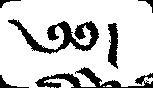༄༅།
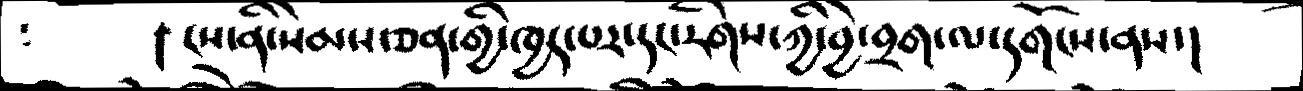།   ངས་ནི་སེམ་ཅན་གྱི་ཁྱད་པར་དང་རིགས་ཀྱི་བྱེ་བྲག་ལ་དགོངས་ནས་།
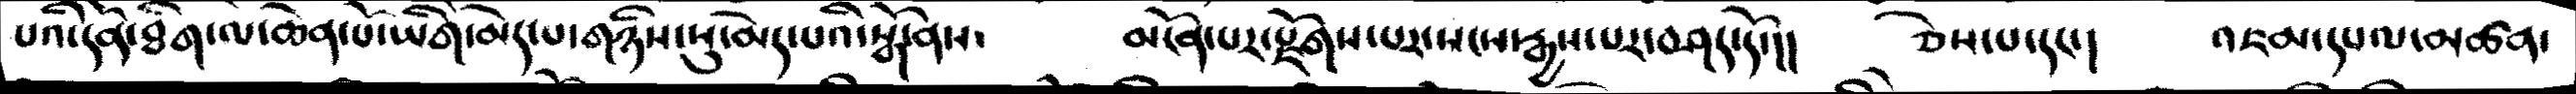པའི་དོན་ཐིག་ལ་ཆེན་པོ་ཡིག་མེད་པ་གཉིས་སུ་མེད་པའི་སྒོ་ནས་         མངོན་པར་སྫོགས་པར་སངས་རྒྱས་པར་བཤད་དོ་།།    ཅེས་པ་དང་།    འཇམ་དཔལ་མཚན་
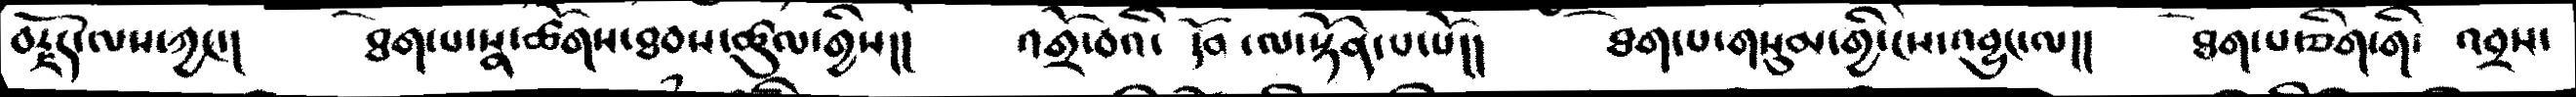བརྗོད་ལས་ཀྱང་།    ཐེག་པ་སྣ་ཚོགས་ཐབས་ཚུལ་གྱིས།།    འགྲོ་བའི་དོན་ལ་སྟོན་པ་པོ།།   ཐེག་པ་གསུམ་གྱི་ངེས་འབྱུང་ལ།།    ཐེག་པ་ཅིག་གི་  འབྲས་
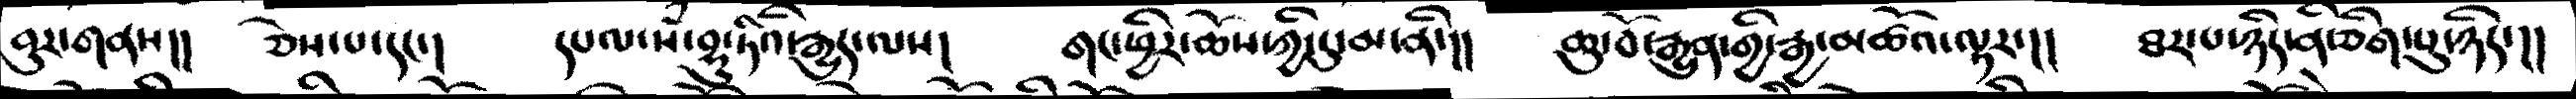བུར་གནས།།    ཅེས་པ་དང་།    དཔལ་སཾ་བྷུ་ཏིའི་རྒྱུར་ལས།    གང་ཕྱིར་ཆོས་ཀྱི་དུ་མ་ནི་།།   ཆུ་བོ་རྒྱུན་གྱི་རྒྱ་མཚོའ་ལྟར་།།     ཐར་པ་ཉིད་ནི་ཅིག་པུ་ཉིད་།།
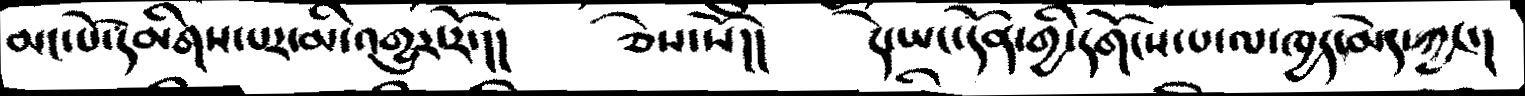མང་པོ་དམིགས་པར་མི་འགྱུར་རོ་།།   ཅེས་སོ།།   དེ་ཡང་དོན་གྱི་དགོངས་པ་ལ་ཁྱད་མེད་ཀྱང་།
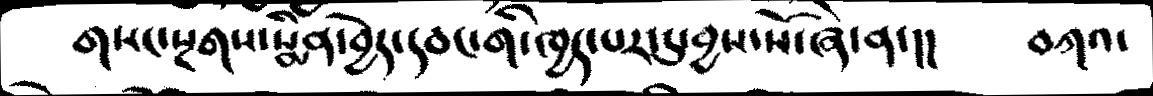གསང་སྔགས་སྨིན་བྱེད་དབང་གི་ཁྱད་པར་དུ་བྱས་སོ་ཞེ་ན་།།      བཀའ་
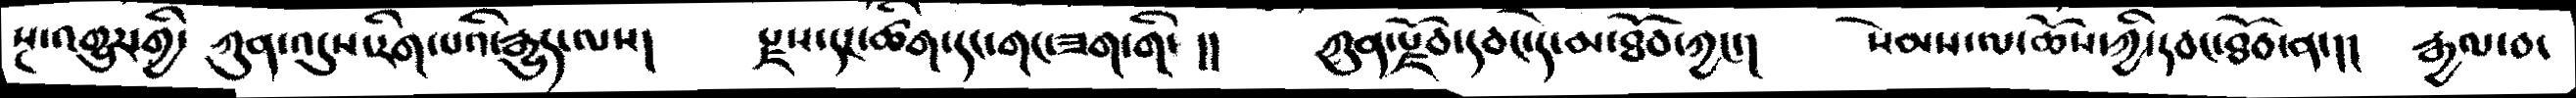སྔ་འགྱུར་གྱི་ ཀུན་འདུས་རིག་པའི་རྒྱུད་ལས།  རྫས་དང་ཚིག་དང་གང་ཟག་གི་།།  ཀུན་རྫོབ་དབང་དེ་མཐོང་ཀྱང་།  སེམས་ལ་ཆོས་ཀྱི་དབང་ཐོབ་ན་།།  རྒྱལ་བར་
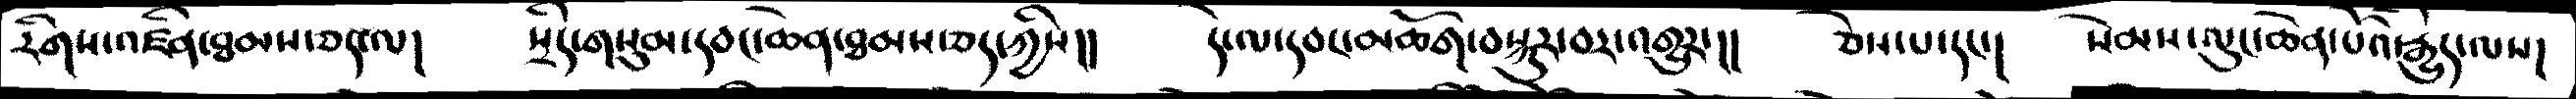རིགས་འཛིན་ཐམས་ཅད་ལ།  སྲིད་གསུམ་དབང་ཆེན་ཐམས་ཅད་ཀྱིས།།   དེ་ལ་དབང་མཆོག་བསྐུར་བར་འགྱུར་།།  ཅེས་པ་དང་།  སེམས་ལུང་ཆེན་པོའི་རྒྱུད་ལས།
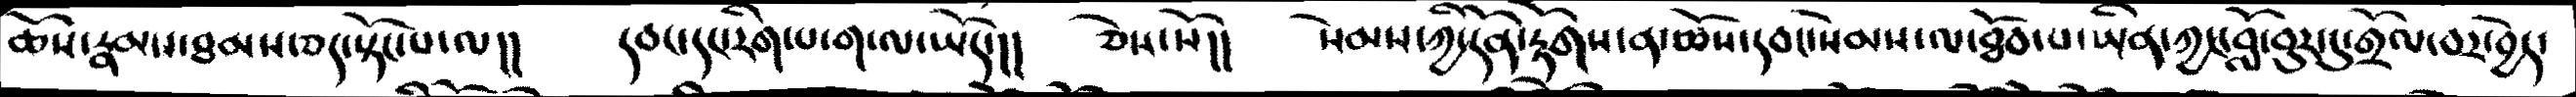ཆོས་རྣམས་ཐམས་ཅད་སྟོང་པ་ལ།།  དབང་དང་རིག་པ་ག་ལ་ཡིད་།  ཅེས་སོ།།   སེམས་ཀྱི་དོན་རྟོགས་ན་ཆོས་དབང་སེམས་ལ་ཐོབ་པ་ཡིན་ཀྱང་བློ་བུར་དུ་གྲོལ་བར་བྱེད་
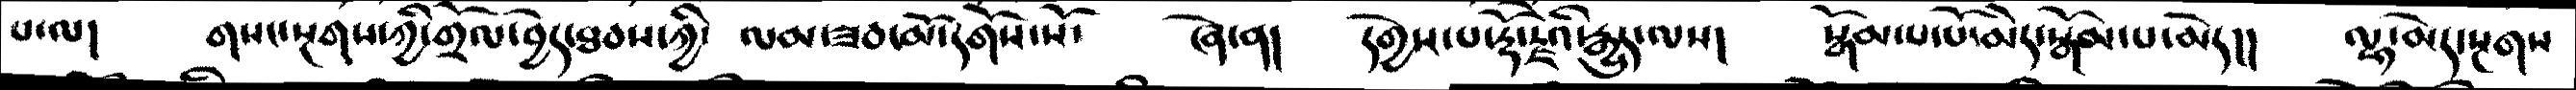པ་ལ།  གསང་སྔགས་ཀྱི་གྲོལ་བྱེད་ཐམས་ཀྱི་ ལམ་ཟབ་མོ་དགོས་སོ་   ཞེ་ན།  དགྱེས་པ་རྡོ་རྗེའི་རྒྱུད་ལས།  སྒོམ་པ་པོ་མེད་སྒོམ་པ་མེད།།  ལྷ་མེད་སྔགས
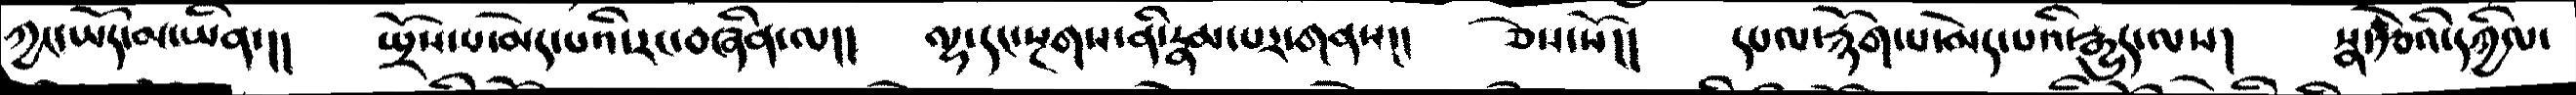ཀྱང་ཡོད་མ་ཡིན་།།  སྤྲོས་པ་མེད་པའི་རང་བཞིན་ལ།།  ལྷ་དང་སྔགས་ནི་རྣམ་པར་གནས།།  ཅེས་སོ།།  དཔལ་རྙོག་པ་མེད་པའི་རྒྱུད་ལས།  རྣ་རྩེའི་ཀྱིལ་
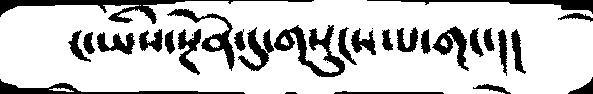ང་ཡིས་སྔོན་དུ་གསུངས་པ་གང་།།
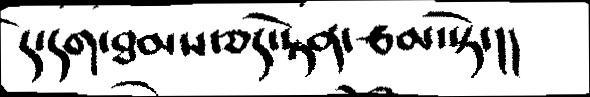དེ་དག་ཐམས་ཅད་རྟེན་རྩམ་ཏེ་།།
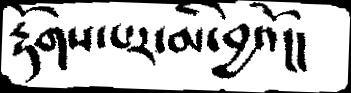རྟོགས་པར་མི་བྱའོ།།
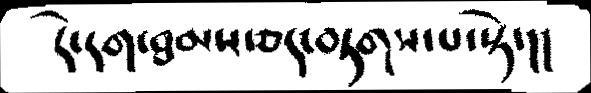དེ་དག་ཐམས་ཅད་བཏགས་པ་སྟེ་།།
